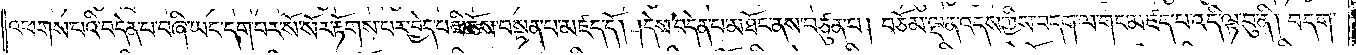འཕགས་པའི་བདེན་པ་བཞི་ཡང་དག་པར་སོ་སོར་རྟོགས་པར་བྱེད་པའི་ཆོས་བསྟན་པ་མཛད་དོ། །དེས་བདེན་པ་མཐོང་ནས་བཙུན་པ། བཅོམ་ལྡན་འདས་ཀྱིས་བདག་ལ་གང་མཛད་པ་འདི་ལྟ་བུ་ནི། བདག་
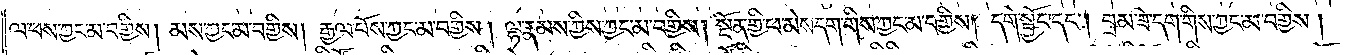ལ་ཕས་ཀྱང་མ་བགྱིས། མས་ཀྱང་མ་བགྱིས། རྒྱལ་པོས་ཀྱང་མ་བགྱིས། ལྷ་རྣམས་ཀྱིས་ཀྱང་མ་བགྱིས། སྔོན་གྱི་ཕ་མེས་དག་གིས་ཀྱང་མ་བགྱིས། དགེ་སྦྱོང་དང༌། བྲམ་ཟེ་དག་གིས་ཀྱང་མ་བགྱིས།
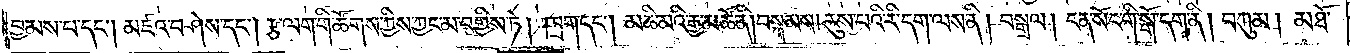བྱམས་པ་དང༌། མཛའ་བཤེས་དང༌། རྩ་ལག་གི་ཚོགས་ཀྱིས་ཀྱང་མ་བགྱིས་ཏེ། ཁྲག་དང༌། མཆི་མའི་རྒྱ་མཚོ་ནི། བསྐམས། རུས་པའི་རི་དག་ལས་ནི། བསྒྲལ། ངན་སོང་གི་སྒོ་དག་ནི། བཀུམ། མཐོ་
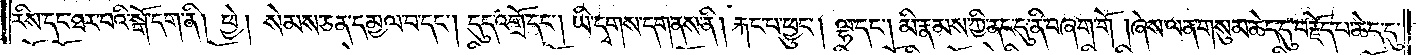རིས་དང་ཐར་པའི་སྒོ་དག་ནི། ཕྱེ། སེམས་ཅན་དམྱལ་བ་དང༌། དུད་འགྲོ་དང༌། ཡི་དྭགས་དག་ནས་ནི། རྐང་པ་ཕྱུང༌། ལྷ་དང༌། མི་རྣམས་ཀྱི་ནང་དུ་ནི་བཞག་གོ །ཞེས་ལན་གསུམ་ཆེད་དུ་བརྗོད་པ་ཆེད་དུ་
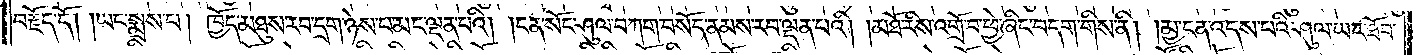བརྗོད་དོ། །ཡང་སྨྲས་པ། ཁྱོད་མཐུས་རབ་དྲག་ཉེས་པ་མང་ལྡན་པའི། །ངན་སོང་ཤུལ་བཀག་བསོད་ནམས་རབ་ལྡན་པའི། །མཐོ་རིས་འགྲོ་བ་ཕྱེ་ཞིང་བདག་གིས་ནི། །མྱ་ངན་འདས་པའི་ཤུལ་ཡང་ཐོབ་
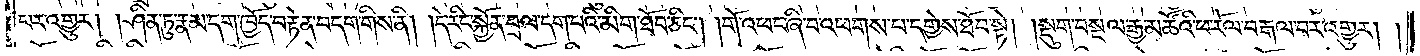པར་འགྱུར། །ཤིན་ཏུ་རྣམ་དག་ཁྱོད་བརྟེན་བདག་གིས་ནི། །དེ་རིང་སྐྱོན་བྲལ་དག་པའི་མིག་ཐོབ་ཅིང༌། །གོ་འཕང་ཞི་བ་འཕགས་པ་དགྱེས་ཐོབ་སྟེ། །སྡུག་བསྔལ་རྒྱ་མཚོའི་ཕ་རོལ་བརྒལ་བར་འགྱུར། །
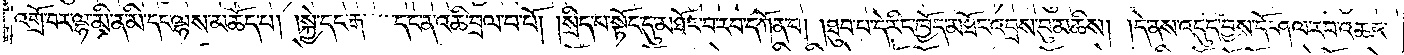འགྲོ་བར་ལྷ་མི་ན་མི་དང་ལྷས་མཆོད་པ། །སྐྱེ་དང་རྒ་དང་ན་འཆི་བྲལ་པ་པོ། །སྲིད་བ་སྟོང་དུ་མཐོང་བ་རབ་དཀོན་པ། །ཐུབ་པ་དེ་རིང་ཁྱོད་མཐོང་འབྲས་བུ་མཆིས། །དེ་ནས་འདུད་བྱས་དོ་ཤལ་རབ་འཆང་
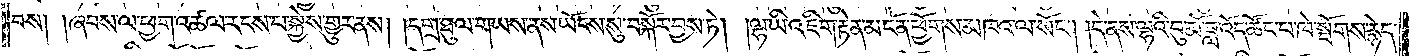བས། །ཞབས་ལ་ཕྱག་འཚལ་རངས་པ་སྐྱེས་གྱུར་ནས། །དགྲ་ཐུལ་གཡས་ནས་ཡོངས་སུ་བསྐོར་བྱས་ཏེ། །ལྷ་ཡི་འཇིག་མངོན་ཕྱོགས་མཁའ་ལ་སོང༌། །དེ་ནས་ལྷའི་བུ་མོ་ཟླ་འོད་ཚོང་པ་ཁེ་སྤོགས་རྙེད་
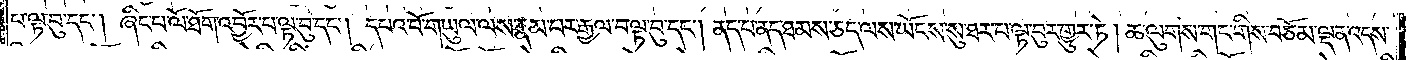པ་ལྟ་བུ་དང༌། ཞིང་བ་ལོ་ཐོག་འབྱོར་བ་ལྟ་བུ་དང༌། དཔའ་བོ་གཡུལ་ལས་རྣམ་པར་རྒྱལ་བ་ལྟ་བུ་དང༌། ནད་པ་ནད་ཐམས་ཅད་ལས་ཡོངས་སུ་ཐར་པ་ལྟ་བུར་གྱུར་ཏེ། ཆ་ལུགས་གང་གིས་བཅོམ་ལྡན་འདས་
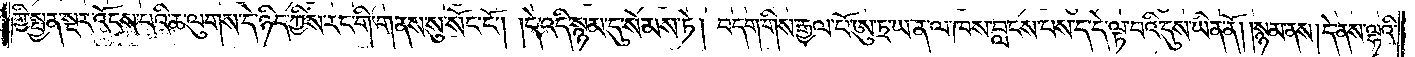ཀྱི་སྤྱན་སྔར་འོངས་པའི་ཆ་ལུགས་དེ་ཉིད་ཀྱིས་རང་གི་གནས་སུ་སོང་ངོ༌། །དེ་འདི་སྙམ་དུ་སེམས་ཏེ། བདག་གིས་རྒྱལ་པོ་ཨུ་ཏྲ་ཡ་ན་ལ་ཁས་བླངས་པས་ད་དེ་ལྟ་བའི་དུས་ཡིན་ནོ། །སྙམ་ནས། དེ་ནས་ལྷའི་
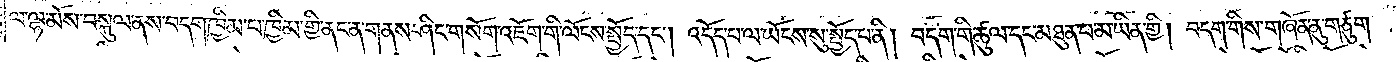ལ་ལྷ་མོས་བསྐུལ་ནས་བདག་ཁྱིམ་པ་ཁྱིམ་གྱི་ནང་ན་གནས་ཤིང་གསོག་འཇོག་གི་ལོངས་སྤྱོད་དང༌། འདོད་པ་ལ་ཡོངས་སུ་སྤྱོད་པ་ནི། བདག་གི་ཚུལ་དང་མཐུན་པ་མ་ཡིན་གྱི། བདག་གིས་གཞོན་ནུ་གཙུག་
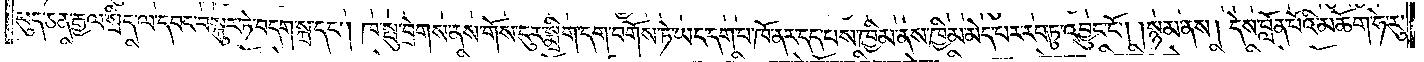ཕུད་ཅན་རྒྱལ་སྲིད་ལ་དབང་བསྐུར་ཏེ་བདག་སྐྲ་དང༌། ཁ་སྤུ་བྲེགས་ནས་གོས་ངུར་སྨྲིག་དག་བགོས་ཏེ་ཡང་དག་པ་ཁོ་ནར་དད་པས་ཁྱིམ་ནས་ཁྱིམ་མེད་པར་རབ་ཏུ་འབྱུང་ངོ༌། །སྙམ་ནས། དེས་བློན་པོའི་མཆོག་ཧེ་རུ་
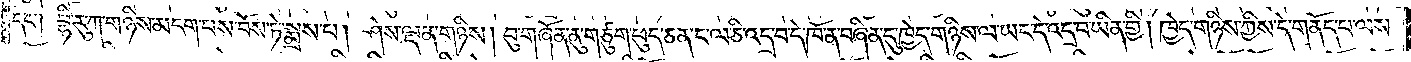དང༌། བྷི་རུ་ཀ་གཉིས་མངག་པས་བོས་ཏེ་སྨྲས་པ། ཤེས་ལྡན་གཉིས། བུ་གཞོན་ནུ་གཙུག་ཕུད་ཅན་ང་ལ་ཅི་འདྲ་བ་དེ་ཁོ་ན་བཞིན་དུ་ཁྱེད་གཉིས་ལ་ཡང་དེ་འདྲ་བ་ཡིན་གྱི། ཁྱེད་གཉིས་ཀྱིས་དེ་གནོད་པ་ལས
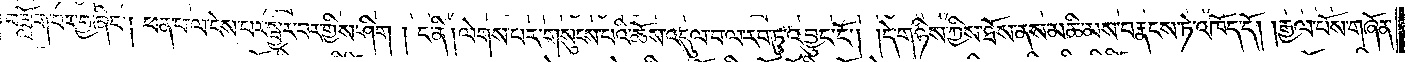བཟློག་པར་བྱ་ཞིང༌། ཕན་པ་ལ་ངེས་པར་སྦྱར་བར་གྱིས་ཤིག །ང་ནི། ལེགས་པར་གསུངས་པའི་ཆོས་འདུལ་བ་ལ་རབ་ཏུ་འབྱུང་ངོ༌། །དེ་གཉིས་ཀྱིས་ཐོས་ནས་མཆི་མས་བརྣངས་ཏེ་འཁོད་དོ། །རྒྱལ་པོས་གཞོན་
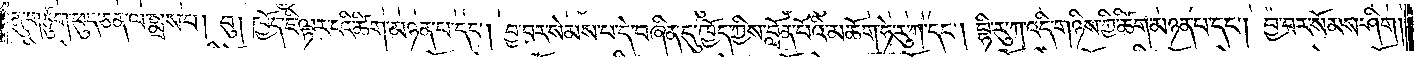ནུ་གཙུག་ཕུད་ཅན་ལ་སྨྲས་པ། བུ། ཁྱོད་ཇི་ལྟར་ངའི་ཚིག་མཉན་པ་དང༌། བྱ་བར་སེམས་པ་དེ་བཞིན་དུ་ཁྱོད་ཀྱིས་བློན་པོའི་མཆོག་ཧེ་རུ་ཀ་དང༌། བྷི་རུ་ཀ་འདི་གཉིས་ཀྱི་ཚིག་མཉན་པ་དང༌། བྱ་བར་སོམས་ཤིག།
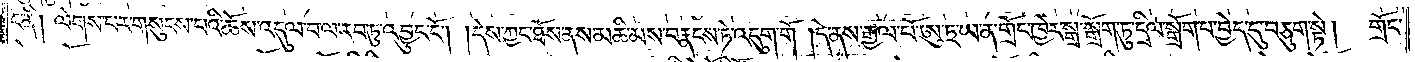ང་ནི། ལེགས་པར་གསུངས་པའི་ཆོས་འདུལ་བ་ལ་རབ་ཏུ་འབྱུང་ངོ༌། །དེས་ཀྱང་ཐོས་ནས་མཆི་མས་བརྣངས་ཏེ་འདུག་གོ །དེ་ནས་རྒྱལ་པོ་ཨུ་ཏྲ་ཡ་ན་གྲོང་ཁྱེར་སྒྲ་སྒྲོག་ཏུ་དྲིལ་སྒྲོག་པ་བྱེད་དུ་བཅུག་སྟེ། གྲོང་
